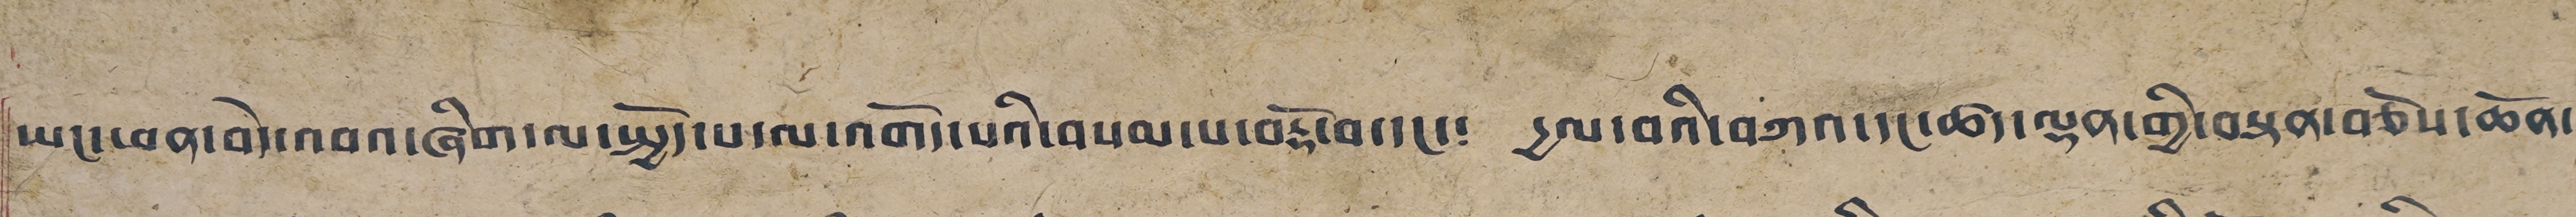ཡང་ཕན་བདེ་འབའ་ཞིག་ལ་སྤྱོད་པ་ལ་འགོད་པའི་བསམ་པ་བརྡོ་བ་དང་༴ དྱལ་བའི་བཀའ་དང་ཚད་ལྡན་གྱི་བསྟན་བཅོས་ཆེན་
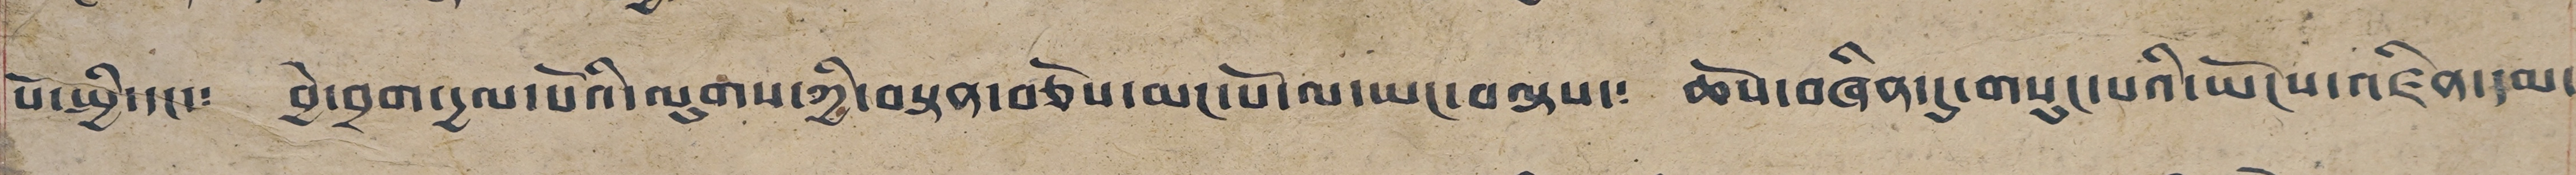པོ་སྤྱི་དང་༴ བྱེ་བྲག་དྱལ་པོའི་ལུགས་ཀྱི་བསྟན་བཅོས་མང་པོ་ལ་ཡང་བལྟས་༴ ཆོས་བཞིན་དུ་གསུང་པའི་ཡོངས་འཛིན་དམ་
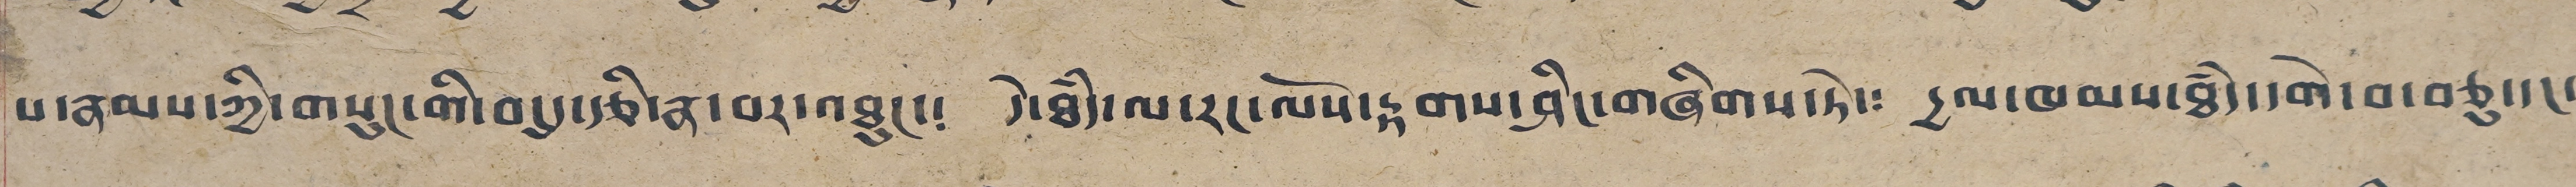པ་རྣམས་ཀྱི་གསུང་གི་བདུད་རྩི་རྣ་བར་འཐུང་༴ དེ་ཐཾད་ལ་རང་ལོས་རྟགས་ཤིང་གཞིགས་ཏེ་༴ དྱལ་ཁམས་ཐཾད་དགེ་བ་བཅུ་དང་
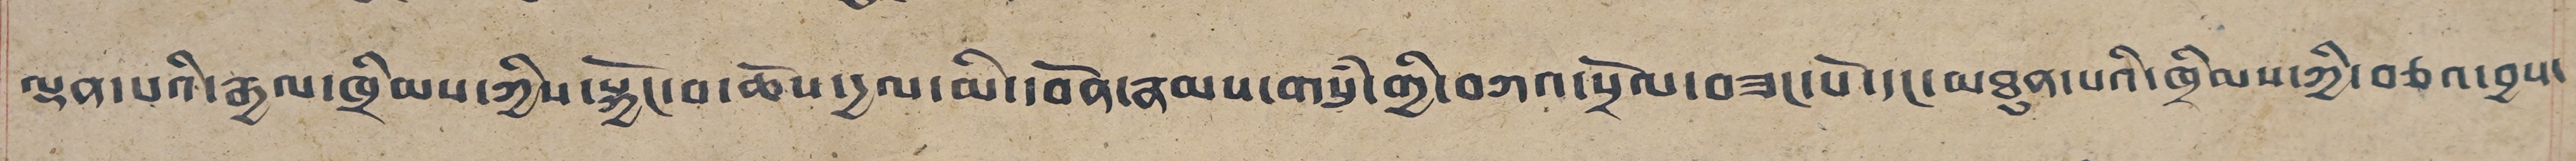ལྡན་པའི་རྒྱལ་ཁྲིམས་ཀྱིས་སྐྱོང་བ་ཆོས་དྱལ་མི་དབོན་རྣམས་གསུཾ་གྱི་བཀའ་སྲོལ་བཟང་པོ་དང་མཐུན་པའི་ཁྲིམས་ཀྱི་བཅའ་བྱས་
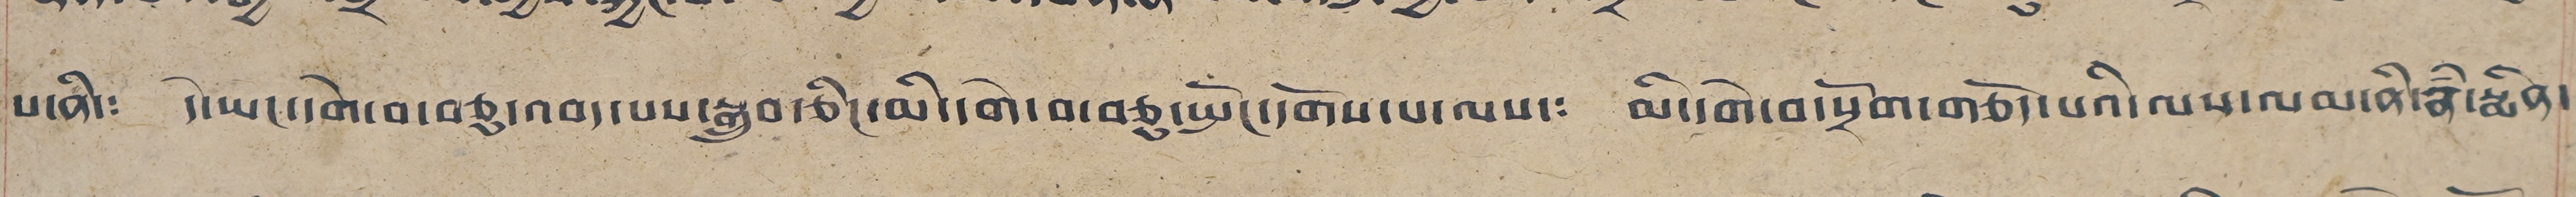པ་ནི་༴ དེ་ཡང་དགེ་བ་བཅུ་འབད་པས་སྒྲུབ་ཅིང་མི་དགེ་བ་བཅུ་སྤོང་དགོས་པ་ལས་༴ མི་དགེ་བ་སྲོག་གཅོད་པའི་ལས་ལམ་ནི་རྣཾ་སྨིན་
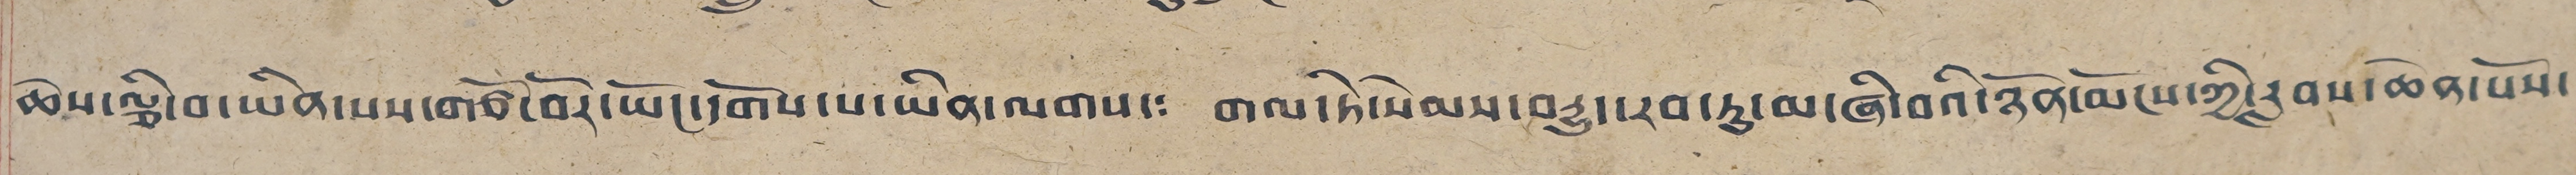ཆོས་ལྕི་བ་ཡིན་པས་གཙོ་བོར་ཡོང་དགོས་པ་ཡིན་ལགས་༴ གལ་ཏེ་སེམས་བརྒྱུ་རབ་ཏུ་མ་ཞི་བའི་ཉོན་མོངས་ཀྱི་རླབས་ཆེན་པོས་
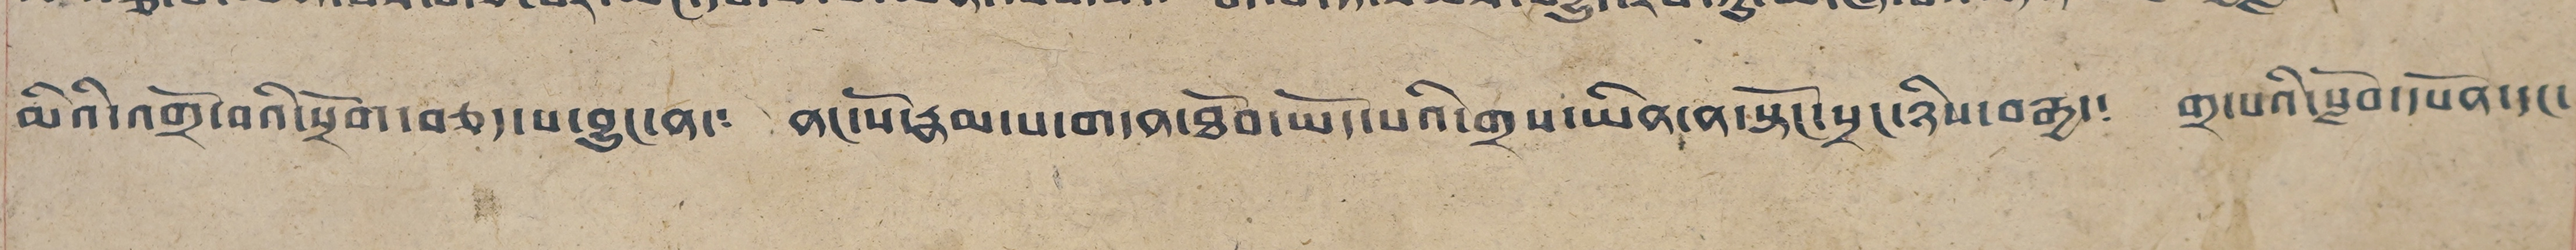མིའི་འགྲོ་བའི་སྲོག་བཅད་པ་བྱུང་ནས་༴ ནང་སོ་རྣམ་པ་གདན་ཐོབ་ཡོད་པའི་གྲས་ཡིན་ན་སྟོང་སྲང་ཉིས་བརྒྱད་༴ གྲ་པའི་སློབ་དཔོན་དང་
